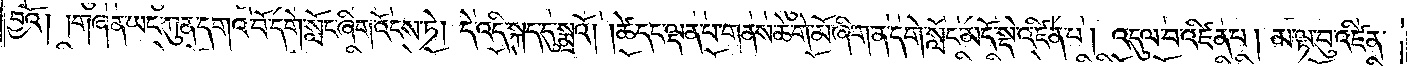བྱའོ། །གཞན་ཡང་ཀུན་དགའ་བོ་དགེ་སློང་ཞིག་འོངས་ཏེ། དེ་འདི་སྐད་དུ་སྨྲའོ། །ཚེ་དང་ལྡན་པ་གནས་ཆེ་གེ་མོ་ཞིག་ན་དགེ་སློང་མདོ་སྡེ་འཛིན་པ། འདུལ་བ་འཛིན་པ། མ་ལྟ་བུ་འཛིན་
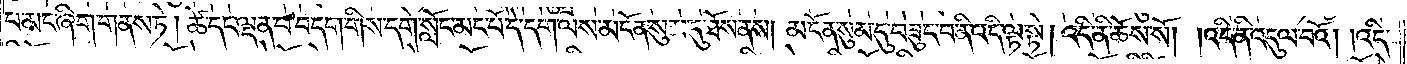པ་མང་ཞིག་གནས་ཏེ། ཚེ་དང་ལྡན་པ་བདག་གིས་དགེ་སློང་མང་པོ་དེ་དག་ལས་མངོན་སུམ་དུ་ཐོས་ནས། མངོན་སུམ་དུ་བཟུང་བ་ནི་འདི་ལྟ་སྟེ། འདི་ནི་ཆོས་སོ། །འདི་ནི་འདུལ་བའོ། །འདི་
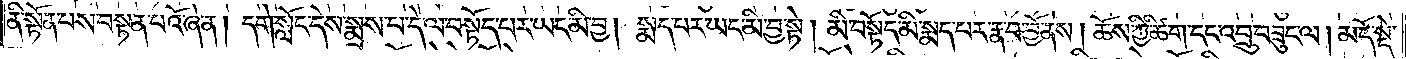ནི་སྟོན་པས་བསྟན་པའོ་ཞེ་ན། དགེ་སློང་དེས་སྨྲས་པ་དེ་ལ་བསྟོད་པར་ཡང་མི་བྱ། སྨད་པར་ཡང་མི་བྱ་སྟེ། མི་བསྟོད་མི་སྨད་པར་རྣ་བ་བྱོ་ནས། ཆོས་ཀྱི་ཚིག་དང་འབྲུ་བཟུང་ལ། མདོ་སྡེ་
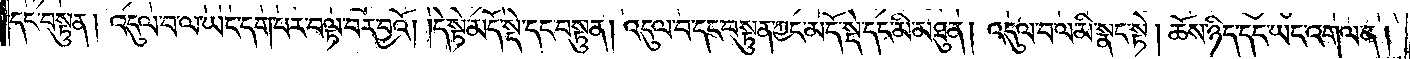དང་བསྟུན། འདུལ་བ་ལ་ཡང་དག་པར་བལྟ་བར་བྱའོ། །དེ་སྟེ་མདོ་སྡེ་དང་བསྟུན། འདུལ་བ་དང་བསྟུན་ཀྱང་མདོ་སྡེ་དང་མི་མཐུན། འདུལ་བ་ལ་མི་སྣང་སྟེ། ཆོས་ཉིད་དང་ཡང་འགལ་ན།
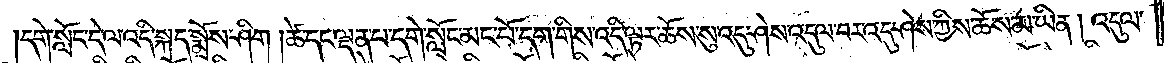དགེ་སློང་དེ་ལ་འདི་སྐད་སྨྲོས་ཤིག །ཚེ་དང་ལྡན་པ་དགེ་སློང་མང་པོ་དག་གིས་འདི་ལྟར་ཆོས་སུ་འདུ་ཤེས་འདུལ་བར་འདུ་ཤེས་ཀྱིས་ཆོས་མ་ཡིན། འདུལ་
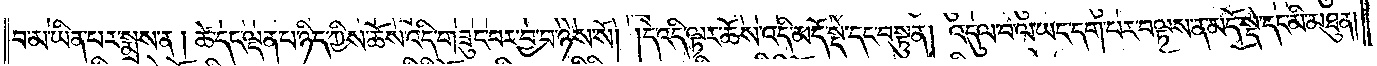བ་མ་ཡིན་པར་སྨྲས་ན། ཚེ་དང་ལྡན་པ་ཉིད་ཀྱིས་ཆོས་འདི་གཟུང་བར་བྱ་བ་ཉེས་སོ། །དེ་འདི་ལྟར་ཆོས་འདི་མདོ་སྡེ་དང་བསྟུན། འདུལ་བ་ལ་ཡང་དག་པར་བལྟས་ན་མདོ་སྡེ་དང་མི་མཐུན།
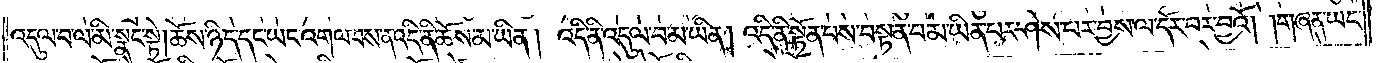འདུལ་བ་ལ་མི་སྣང་སྟེ།ཆོས་ཉིད་དང་ཡང་འགལ་བས་ན་འདི་ནི་ཆོས་མ་ཡིན། འདི་ནི་འདུལ་བ་མ་ཡིན། འདི་ནི་སྟོན་པས་བསྟན་པ་མ་ཡིན་པར་ཤེས་པར་བྱས་ལ་དོར་བར་བྱའོ། །གཞན་ཡང་
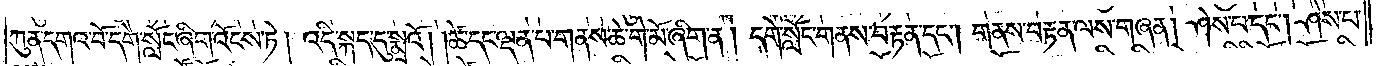ཀུན་དགའ་བོ་དགེ་སློང་ཞིག་འོངས་ཏེ། འདི་སྐད་དུ་སྨྲའོ། །ཚེ་དང་ལྡན་པ་གནས་ཆེ་གེ་མོ་ཞིག་ན། དགེ་སློང་གནས་བརྟན་དང༌། གནས་བརྟན་ལས་གཞན། ཤེས་པ་དང༌། ཤེས་པ་
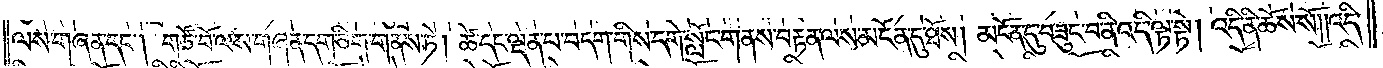ལས་གཞན་དང༌། གཙོ་བོ་ལས་གཞན་དག་ཅིག་གནས་ཏེ། ཚེ་དང་ལྡན་པ་བདག་གིས་དགེ་སློང་གནས་བརྟན་ལས་མངོན་དུ་ཐོས། མངོན་དུ་བཟུང་བ་ནི་འདི་ལྟ་སྟེ། འདི་ནི་ཆོས་སོ། །འདི་
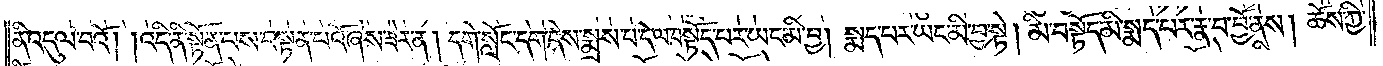ནི་འདུལ་བའོ། །འདི་ནི་སྟོན་པས་བསྟན་པའོ་ཞེས་ཟེར་ན། དགེ་སློང་དག་དེས་སྨྲས་པ་དེ་ལ་བསྟོད་པར་ཡང་མི་བྱ། སྨད་པར་ཡང་མི་བྱ་སྟེ། མི་བསྟོད་མི་སྨད་པར་རྣ་བ་བྱོ་ནས། ཆོས་ཀྱི་
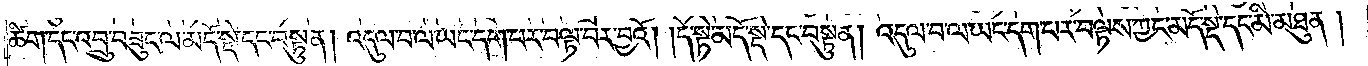ཚིག་དང་འབྲུ་བཟུང་ལ་མདོ་སྡེ་དང་བསྟུན། འདུལ་བ་ལ་ཡང་དག་པར་བལྟ་བར་བྱའོ། །དེ་སྟེ་མདོ་སྡེ་དང་བསྟུན། འདུལ་བ་ལ་ཡང་དག་པར་བལྟས་ཀྱང་མདོ་སྡེ་དང་མི་མཐུན།
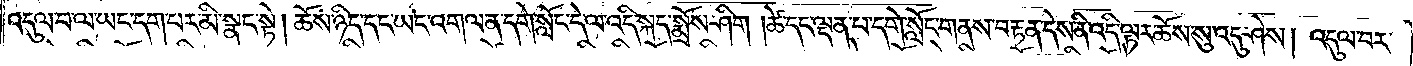འདུལ་བ་ལ་ཡང་དག་པར་མི་སྣང་སྟེ། ཆོས་ཉིད་དང་ཡང་འགལ་ན་དགེ་སློང་དེ་ལ་འདི་སྐད་སྨྲོས་ཤིག །ཚེ་དང་ལྡན་པ་དགེ་སློང་གནས་བརྟན་དེས་ནི་འདི་ལྟར་ཆོས་སུ་འདུ་ཤེས། འདུལ་བར་
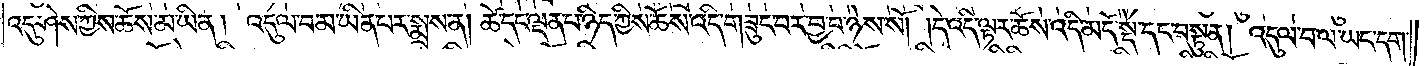འདུ་ཤེས་ཀྱིས་ཆོས་མ་ཡིན། འདུལ་བ་མ་ཡིན་པར་སྨྲས་ན། ཚེ་དང་ལྡན་པ་ཉིད་ཀྱིས་ཆོས་འདི་གཟུང་བར་བྱ་བ་ཉེས་སོ། །དེ་འདི་ལྟར་ཆོས་འདི་མདོ་སྡེ་དང་བསྟུན། འདུལ་བ་ལ་ཡང་དག་
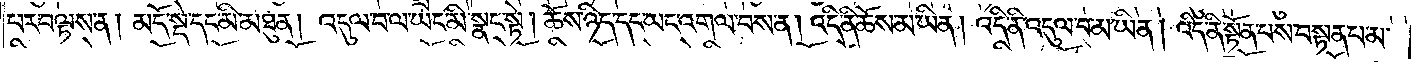པར་བལྟས་ན། མདོ་སྡེ་དང་མི་མཐུན། འདུལ་བ་ལ་ཡང་མི་སྣང་སྟེ། ཆོས་ཉིད་དང་ཡང་འགལ་བས་ན། འདི་ནི་ཆོས་མ་ཡིན། འདི་ནི་འདུལ་བ་མ་ཡིན། འདི་ནི་སྟོན་པས་བསྟན་པ་མ་
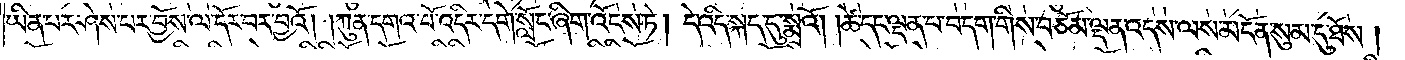ཡིན་པར་ཤེས་པར་བྱོས་ལ་དོར་བར་བྱའོ། །ཀུན་དགའ་བོ་འདིར་དགེ་སློང་ཞིག་འོངས་ཏེ། དེ་འདི་སྐད་དུ་སྨྲའོ། །ཚེ་དང་ལྡན་པ་བདག་གིས་བཅོམ་ལྡན་འདས་ལས་མངོན་སུམ་དུ་ཐོས།
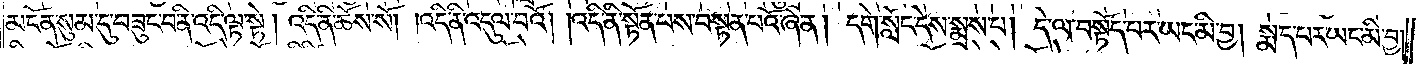མངོན་སུམ་དུ་བཟུང་བ་ནི་འདི་ལྟ་སྟེ། འདི་ནི་ཆོས་སོ། །འདི་ནི་འདུལ་བའོ། །འདི་ནི་སྟོན་པས་བསྟན་པའོ་ཞེ་ན། དགེ་སློང་དེས་སྨྲས་པ། དེ་ལ་བསྟོད་པར་ཡང་མི་བྱ། སྨད་པར་ཡང་མི་བྱ།
